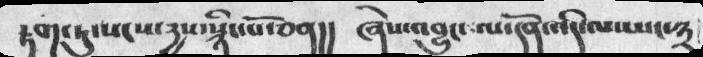རྟག་ཏུ་སངས་དྱས་སྙིང་པོ་ཅན།།  ཞེས་འབྱུང་ལ་དོན་དེ་ལས་ཡང་༣
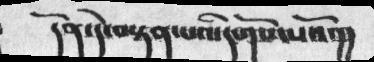དོན་དེ་བསྟན་པའི་དགོས་པའོ་།།
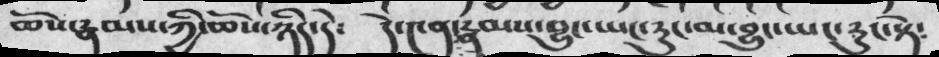ཆོས་རྣམས་ཀྱི་ཆོས་ཉིད་དེ༴   དེ་༤ན་རྣམས་བྱུང་ཡང་རུང་མ་བྱུང་ཡང་རུང་སྟེ༴
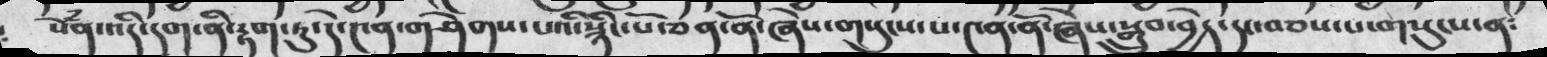སེཾན་འདི་དག་ནི་རྟག་ཏུ་དེ་༤ན་གཤེགས་པའི་སྙིང་པོ་ཅན་ནོ་ཞེས་གསུངས་པ་༤ན་ནོ་ཞེས་སྒྲུབ་བྱེད་དང་བཅས་པ་གསུངས་ན༴
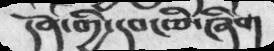དོན་གྱི་དབང་ཅི་ཞིག
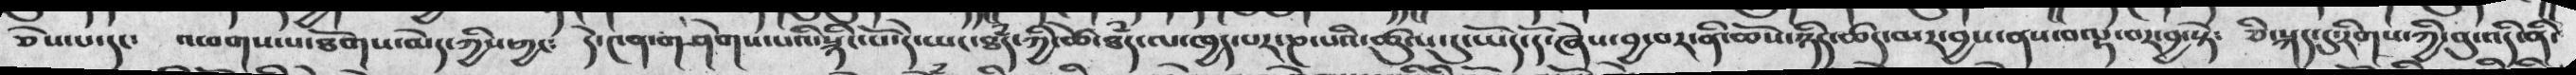ཅེས་པ་དང༴  འཕགས་པ་ཐོགས་མེད་ཀྱིས་ཀྱང༴ དེ་༤ན་གཤེགས་པའི་སྙིང་པོ་དེ་ཡང་ཐཾད་ཀྱི་ཚེ་ཐཾད་ལ་ཁྱད་པར་ཎ་པའི་ཚུལ་དུ་ཡོད་དོ་ཞེས་བྱ་བར་ནི་ཆོས་ཉིད་ཚད་མར་བྱས་ནས་བལྟ་བར་བྱ་སྟེ༴  ཅི་སྐད་དུ་རིགས་ཀྱི་བུ་འདི་ནི་
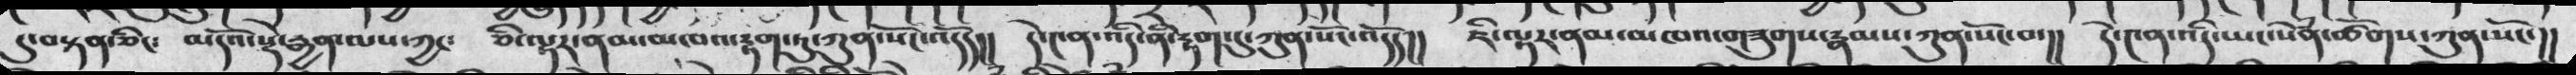དུ་བསྟན་ཅིང༴ མདོའ་སྡེ་རྒྱན་ལས་ཀྱང༴  ཅི་ལྟར་ནམ་མཁའ་རྟག་ཏུ་ཀུན་སོང་འདོད།།  དེ་༤ན་འདི་ནི་རྟག་དུ་ཀུན་སོང་འདོད།། ཇི་ལྟར་ནམ་མཁའ་གཟུགས་རྣམས་ཀུན་སོང་བ་།།  དེ་༤ན་འདི་ཡང་སེཾན་ཚོགས་ཀུན་སོང་།།
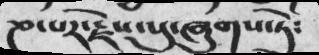ཎ་པར་རྗེས་སུ་ཞུགས་ཏེ༴
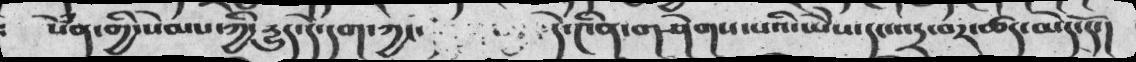སེཾན་གྱི་སེམས་ཀྱི་རྱུད་དེ་དག་ཀྱང་  དེ་༤ིན་གཤེགས་པའི་ཡཻས་དང་འདྲ་བར་ཚད་མེད་དོ་།
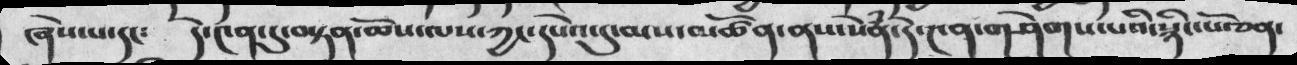ཞེས་པ་དང༴  དེ་༤ན་དུ་བསྟན་ཆོས་ལས་ཀྱང་དཔེའ་དུ་མས་མཚོན་ནས་སེཾན་དེ་༤ན་གཤེགས་པའི་སྙིང་པོ་ཅན་
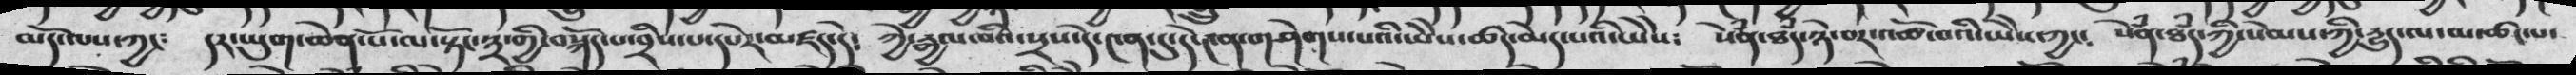མདོ་ལས་ཀྱང༴  དར་ཡུག་ཆེན་པོ་ལ་སྟོང་༣་གྱི་བསྐོད་པ་བྲིས་པ་དཔེར་མཛད་དེ༴  ཀྱེ་རྒྱལ་བའི་སྲས་དེ་༤ན་དུ་དེ་༤ན་གཤེགས་པའི་ཡཻས་ཚད་མེད་པའི་ཡཻས༴  སེཾན་ཐཾད་ཉེ་བར་འཚོ་བའི་ཡཻས་ཀྱང༴  སེཾན་ཐཾད་ཀྱི་སེམས་ཀྱི་རྱུད་ལ་མ་ཚང་པ་
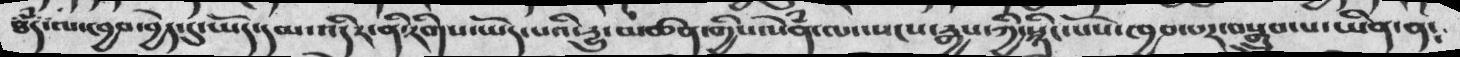ཐཾད་ལ་ཁྱབ་བྱེད་དུ་ཡོད་དམ་འདིར་ནི་རིགས་ཡོད་པའི་རྱུ་མཚན་གྱིས་སེཾན་ལ་སངས་རྒྱས་ཀྱི་སྙིང་པོས་ཁྱབ་པར་བསྒྲུབ་པ་ཡིན་ན༴
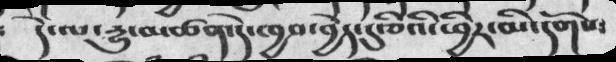དེ་ལ་རྱུ་མཚན་དེ་ཁྱབ་བྱེད་དུ་ཅིའི་ཕྱིར་མི་དགོས་
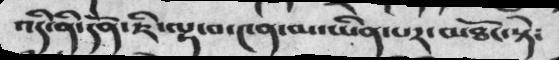འདི་ནི་དོན་ཇི་ལྟ་བ་༤ན་མ་ཡིན་པར་མཐོང་སྟེ༴
